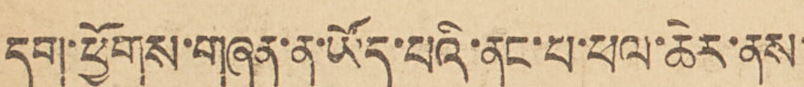དག་ཕྱོགས་གཞན་ན་ཡོན་པའི་ནང་པ་ཕལ་ཆེར་ནས་
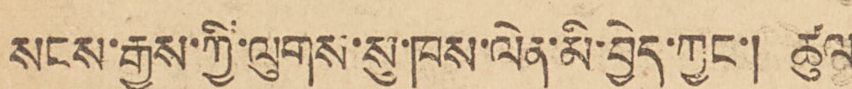སངས་རྒྱས་ཀྱི་ལུགས་སུ་ཁས་ལེན་མི་བྱེད་ཀྱང་། ཚུལ་
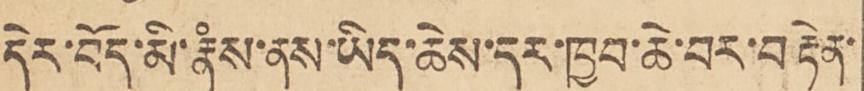དེར་བོད་མི་རྣཾས་ནས་ཡིད་ཆེས་དར་ཁྱབ་ཆེ་བར་བརྟེན་
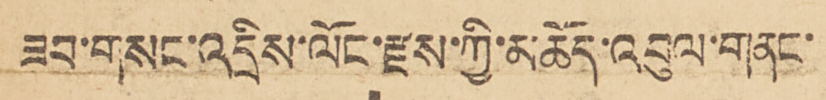ཟབ་གསང་འདྲིས་ལོང་རྫས་ཀྱི་མཆོད་འབུལ་གནང་
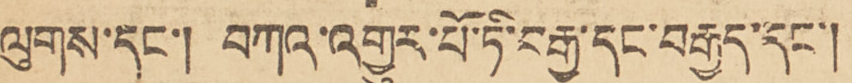ལུགས་དང་། བཀའ་འགྱུར་པོ་ཏི་བརྒྱ་དང་བརྒྱད་དང་།
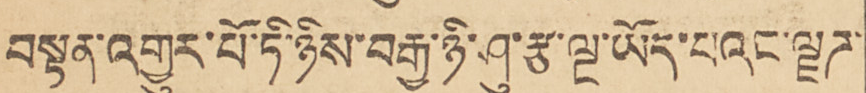བསྟན་འགྱུར་པོ་ཏི་ཉིས་བརྒྱ་ཉི་ཤུ་རྩ་ལྔ་ཡོད་པའང་ལྗཊ་
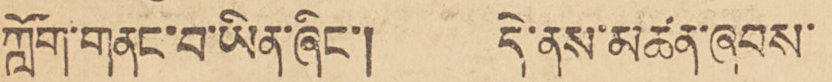ཀློག་གནང་བ་ཡིན་ཞིང་། དེ་ནས་མཚན་ཞབས་
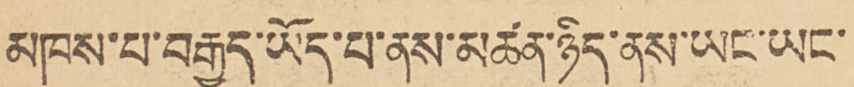མཁས་པ་བརྒྱད་ཡོད་པ་ནས་མཚན་ཉིད་ནས་ཡང་ཡང་
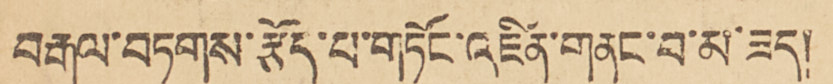བརྒལ་བཏགས་རྩོད་པ་གཏོང་འཛིན་གནང་བ་མ་ཟད།
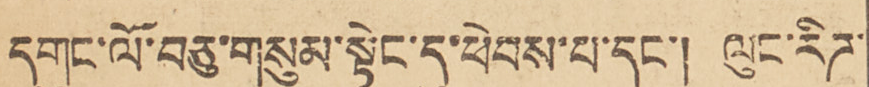དགུང་ལོ་བཅུ་གསུམ་སྟེང་དུ་ཕེབས་པ་དང་། ལུང་རིཊ་
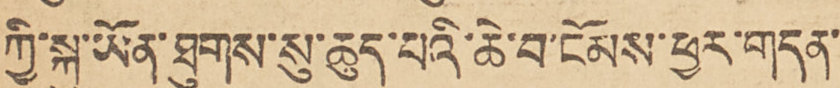ཀྱི་སྐུ་ཡོན་ཐུགས་སུ་ཆུད་པའི་ཆེ་བ་ངོམས་ཕྱར་གདན་
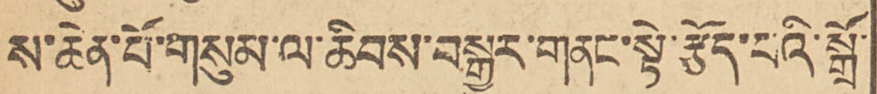ས་ཆེན་པོ་གསུམ་ལ་ཆིབས་བསྒྱུར་གནང་སྟེ་རྩོད་པའི་སྒྲོ་
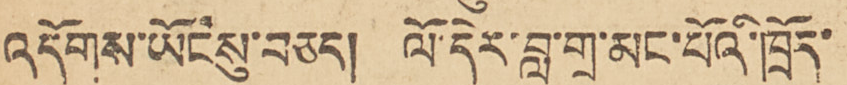འདོགས་ཡོངསུ་བཅད། ལོ་དེར་བླ་གྲྭ་མང་པོའི་ཁྲོད་
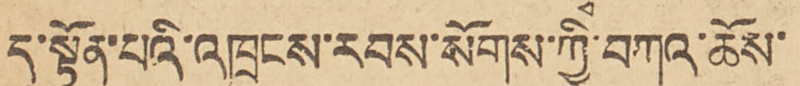དུ་སྟོན་པའི་འཁྲུངས་རབས་སོགས་ཀྱི་བཀའ་ཆོས་
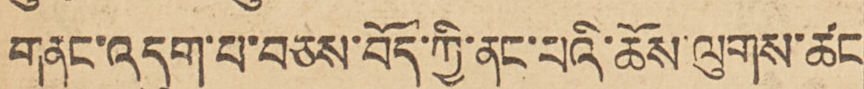གནང་འདུག་པ་བཅས་བོད་ཀྱི་ནང་པའི་ཆོས་ལུགས་ཚང
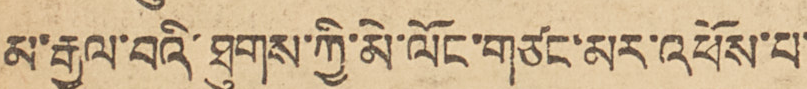མ་རྒྱལ་བའི་ཐུགས་ཀྱི་མེ་ལོང་གཙང་མར་འཕོས་པ་
